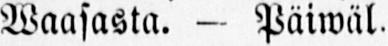Waasasta. — Päiwäl.
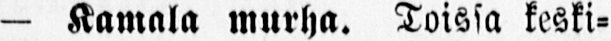— Kamala murha. Toissa keski-
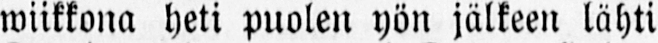wiikkona heti puolen yön jälkeen lähti
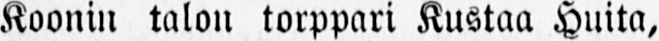Koonin talon torppari Kustaa Huita,
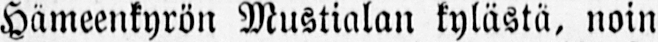Hämeenkyrön Mustialan kylästä, noin
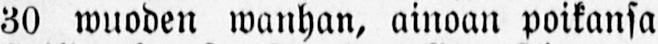30 wuoden wanhan, ainoan poikansa
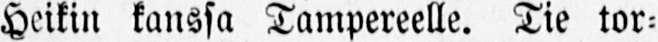Heikin kanssa Tampereelle. Tie tor-
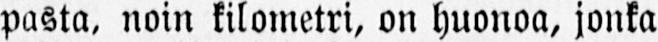pasta, noin kilometri, on huonoa, jonka
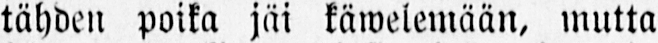tähden poika jäi käwelemään, mutta
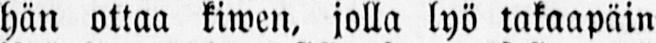hän ottaa kiwen, jolla lyö takaapäin
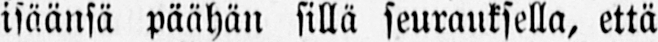isäänsä päähän sillä seurauksella, että
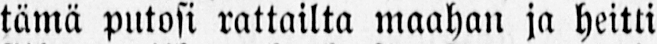tämä putosi rattailta maahan ja heitti
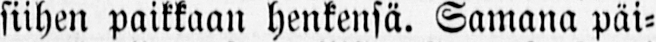siihen paikkaan henkensä. Samana päi-
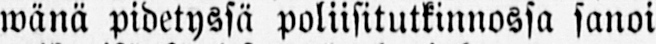wänä pidetyssä poliisitutkinnossa sanoi
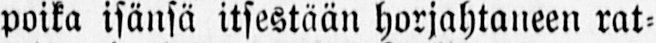poika isänsä itsestään horjahtaneen rat-
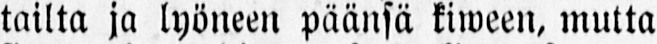tailta ja lyöneen päänsä kiween, mutta
